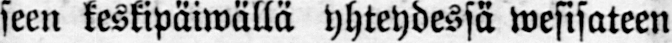seen keskipäiwällä yhteydessä wesisateen
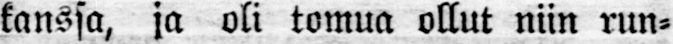kanssa, ja oli tomua ollut niin run-
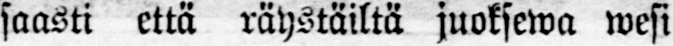saasti että räystäiltä juoksewa wesi
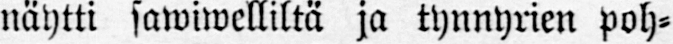näytti sawiwelliltä ja tynnyrien poh-
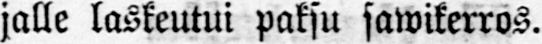jalle laskeutui paksu sawikerros.
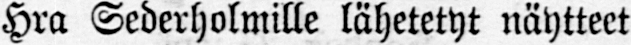Hra Sederholmille lähetetyt näytteet
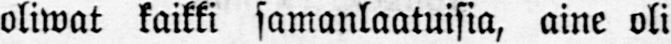oliwat kaikki samanlaatuisia, aine oli
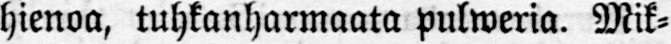hienoa, tuhkanharmaata pulweria. Mik-
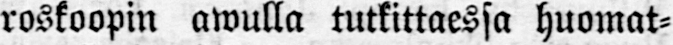roskoopin awulla tutkittaessa huomat-
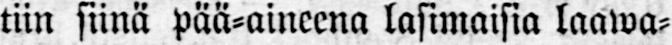tiin siinä pää-aineena lasimaisia laawa-
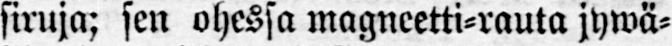siruja; sen ohessa magneetti-rauta jywä-
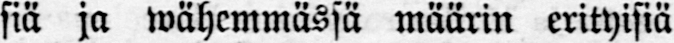siä ja wähemmässä määrin erityisiä
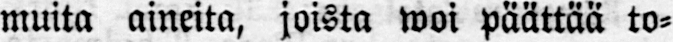muita aineita, joista woi päättää to-
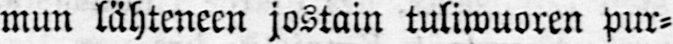mun lähteneen jostain tuliwuoren pur-
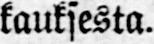kauksesta.
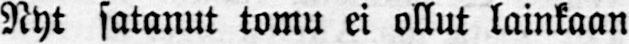Nyt satanut tomu ei ollut lainkaan
